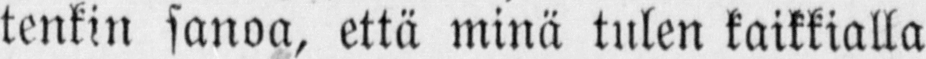tenkin sanoa, että minä tulen kaikkialla
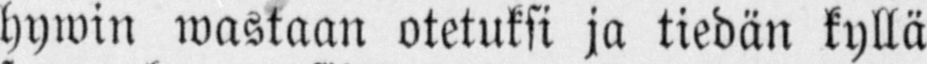hywin wastaan otetuksi ja tiedän kyllä
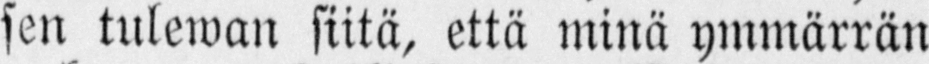sen tulewan siitä, että minä ymmärrän
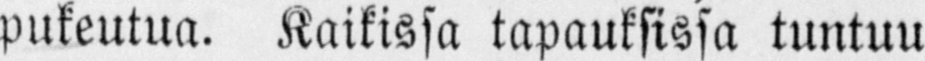pukeutua. Kaikissa tapauksissa tuntuu
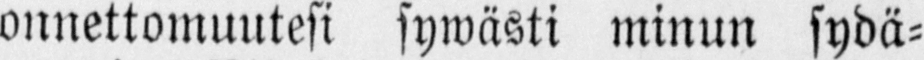onnettomuutesi sywästi minun sydä-
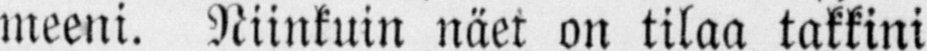meeni. Niinkuin näet on tilaa takkini
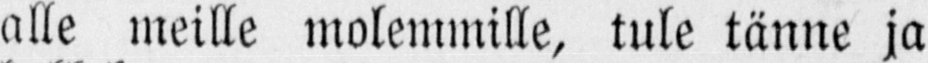alle meille molemmille, tule tänne ja
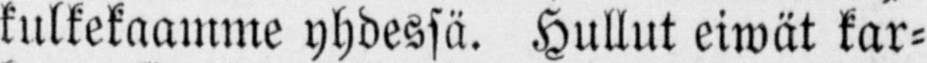kätkekäämme yhdessä. Hullut eiwät kar-
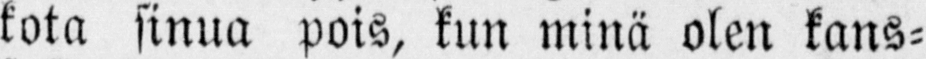kota sinua pois, kun minä olen kans-
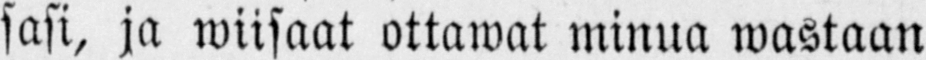sasi, ja wiisaat ottawat minua wastaan
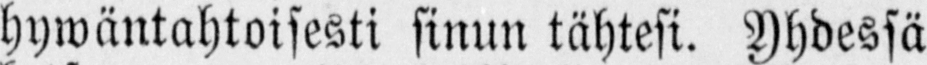hywäntahtoisesti sinun tähtesi. Yhdessä
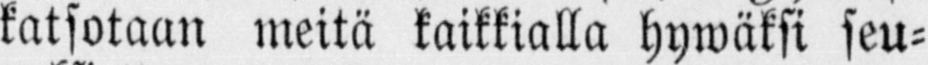katsotaan meitä kaikkialla hywäksi seu-
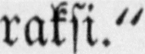raksi."
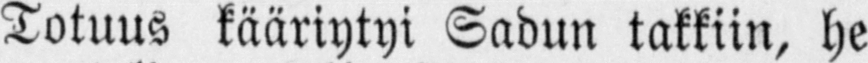Totuus kääriytyi Sadun takkiin, he
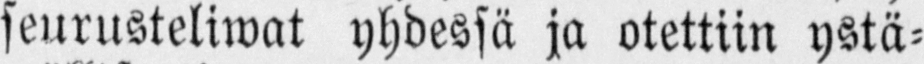seurusteliwat yhdessä ja otettiin ystä-
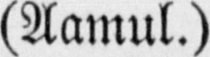(Aamul.)
